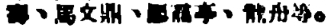壽、馬文鼎、廖靄亭、龍舟等。
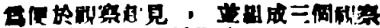爲便於視察起見 ，並組成三個視察
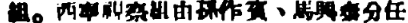組。西寧視察組由孫作賓、馬興泰分任
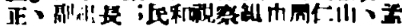正、副組長；民和視察組由周仁山、孟
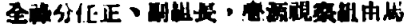全祿分任正、副組長，亹源視察組由馬
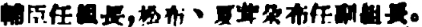輔臣任組長，松布、夏茸尕布任副組長。
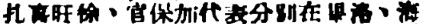扎喜旺徐、官保加代表分別在果洛、海
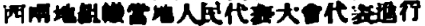西兩地組織當地人民代表大會代表進行
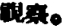視察。
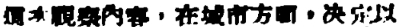這次視察內容，在城市方面，決定以
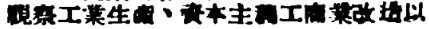視察工業生產、資本主義工商業改造以
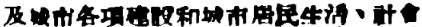及城市各項建設和城市居民生活、社會
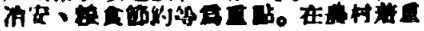治安、粮食節約等爲重點。在農村着重
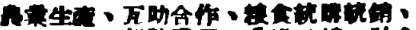農業生產、互助合作、粮食統購統銷、
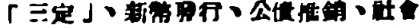「三定」、新幣發行、公債推銷、社會
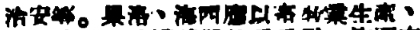治安等。果洛、海西應以畜牧業生產、
